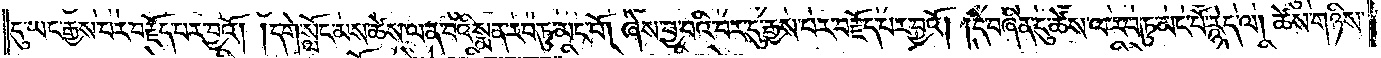དུ་ཡང་རྒྱས་པར་བརྗོད་པར་བྱའོ། །དགེ་སློང་མས་ཚེས་ལ་ན་བའི་སྨན་རབ་ཏུ་མང་པོ། ཞེས་བྱ་བའི་བར་དུ་རྒྱས་པར་བརྗོད་པར་བྱའོ། །དེ་བཞིན་དུ་ཚེས་ལ་རབ་ཏུ་མང་པོ་རྙེད་ལ། ཚེས་གཉིས་
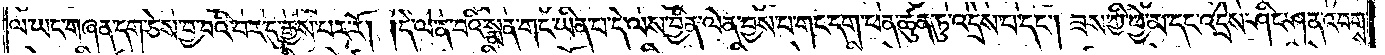ལ་ཡང་གཞན་དག་ཅེས་བྱ་བའི་བར་དུ་རྒྱས་པར་རོ། །དེ་ལ་ན་བའི་སྨན་གང་ཡིན་པ་དེ་ལས་བྱིན་ལེན་བྱས་པ་གང་དག་ཕན་ཚུན་དུ་འདྲེས་པ་དང༌། ཟས་ཀྱི་ཕྱེ་མ་དང་འདྲེས་ཤིང་ཤན་འབགས་
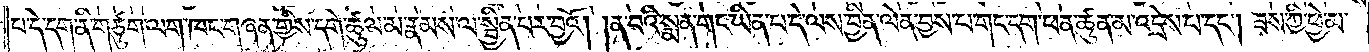པ་དེ་དག་ནི་གཙུག་ལག་ཁང་གཞན་གྱིས་དགེ་ཚུལ་མ་རྣམས་ལ་སྦྱིན་པར་བྱའོ། །ན་བའི་སྨན་གང་ཡིན་པ་དེ་ལས་བྱིན་ལེན་བྱས་པ་གང་དག་ཕན་ཚུན་མ་འདྲེས་པ་དང༌། ཟས་ཀྱི་ཕྱེ་མ་
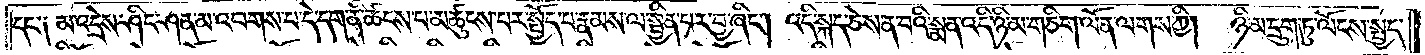དང༌། མ་འདྲེས་ཤིང་ཤན་མ་འཕགས་པ་དེ་དག་ནི་ཚངས་པ་མཚུངས་པར་སྤྱོད་པ་རྣམས་ལ་སྦྱིན་པར་བྱ་ཞིང༌། འདི་སྐད་ཅེས་ན་བའི་སྨན་འདི་ཉི་མ་གཅིག་ལོན་ལགས་ཀྱི། ཉི་མ་དྲུག་ཏུ་ལོངས་སྤྱད་
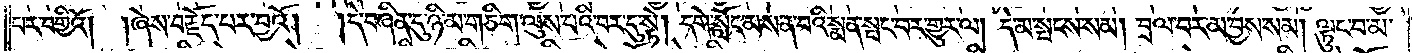པར་བགྱིའོ། །ཞེས་བརྗོད་པར་བྱའོ། །དེ་བཞིན་དུ་ཉི་མ་གཅིག་ལུས་པའི་བར་དུ་སྟེ། དགེ་སློང་མས་ན་བའི་སྨན་སྤང་བར་གྱུར་ལ། དེ་མ་སྤངས་སམ། བྲལ་བར་མ་བྱས་སམ། ལྟུང་བ་མ་
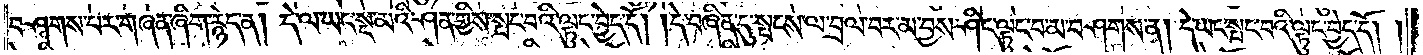བཤགས་པར་གཞན་ཞིག་རྙེད་ན། དེ་ལ་ཡང་སྔ་མའི་ཤན་གྱིས་སྤང་བའི་ལྟུང་བྱེད་དོ། །དེ་བཞིན་དུ་སྤངས་ལ་བྲལ་བར་མ་བྱས་ཤིང་ལྟུང་བ་མ་བཤགས་ན། དེ་ཡང་སྤང་བའི་ལྟུང་བྱེད་དོ། །
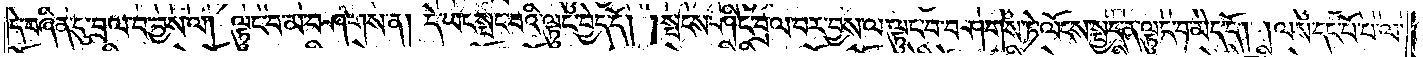དེ་བཞིན་དུ་བྲལ་བ་བྱས་ལ། ལྟུང་བ་མ་བཤགས་ན། དེ་ཡང་སྤང་བའི་ལྟུང་བྱེད་དོ། །སྤངས་ཤིང་བྲལ་བར་བྱས་ལ་ལྟུང་བ་བཤགས་ཏེ་ལོངས་སྤྱད་ན་ལྟུང་བ་མེད་དོ། །ལས་དང་པོ་པ་ལ་
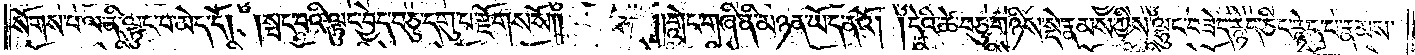སོགས་པ་ལ་ནི་ལྟུང་བ་མེད་དོ། །སྤང་བའི་ལྟུང་བྱེད་བཅུ་དགུ་པ་རྫོགས་སོ༎ ༎གླེང་གཞི་ནི་མཉན་ཡོད་ནའོ། །དེའི་ཚེ་བཅུ་གཉིས་སྡེ་རྣམས་ཀྱིས་ལྷུང་བཟེད་རྙེད་ཅིང་རྙེད་པ་རྣམས་
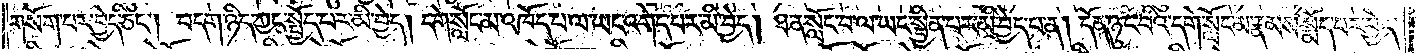གསོག་པར་བྱེད་ཅིང༌། བདག་ཉིད་ཀྱང་སྤྱོད་པར་མི་བྱེད། དགེ་སློང་མ་འཁོད་པ་ལ་ཡང་འགེད་པར་མི་བྱེད། ཐ་ན་སློང་བ་ལ་ཡང་སྦྱིན་པར་མི་བྱེད་པ་ན། དོན་ཉུང་བའི་དགེ་སློང་མ་རྣམས་སྨོད་པར་བྱེད་
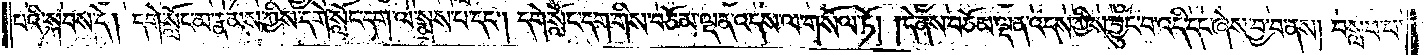པའི་སྐབས་དེ། དགེ་སློང་མ་རྣམས་ཀྱིས་དགེ་སློང་དག་ལ་སྨྲས་པ་དང༌། དགེ་སློང་དག་གིས་བཅོམ་ལྡན་འདས་ལ་གསོལ་ཏོ། །དེ་ནས་བཅོམ་ལྡན་འདས་ཀྱིས་བྱུང་བ་འདི་དང་ཞེས་བྱ་བ་ནས། བསླབ་པ་
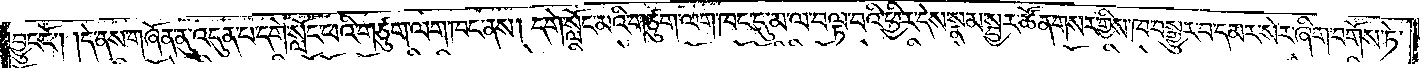བྱུང་ངོ༌། །དེ་ནས་གཞོན་ནུ་འདུན་པ་དགེ་སློང་ཕའི་གཙུག་ལག་ཁང་ནས། དགེ་སློང་མའི་གཙུག་ལག་ཁང་དུ་མ་ལ་བལྟ་བའི་ཕྱིར་དེས་སྣམ་སྦྱར་ཚོན་གསར་གྱིས་ཁ་བསྒྱུར་བ་དམར་སེར་ཞིག་བགོས་ཏེ་
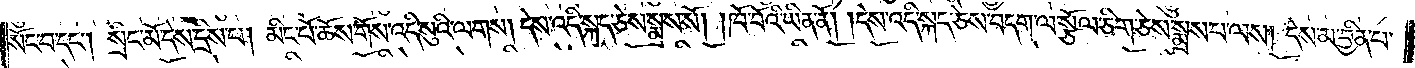སོང་བ་དང༌། སྲིང་མོ་དེས་དྲིས་པ། མིང་པོ་ཆོས་གོས་འདི་སུའི་ལགས། དེས་འདི་སྐད་ཅེས་སྨྲས་སོ། །ཁོ་བོའི་ཡིན་ནོ། །དེས་འདི་སྐད་ཅེས་བདག་ལ་སྩོལ་ཅིག་ཅེས་སྨྲས་པ་ལས། དེས་མ་བྱིན་པ་
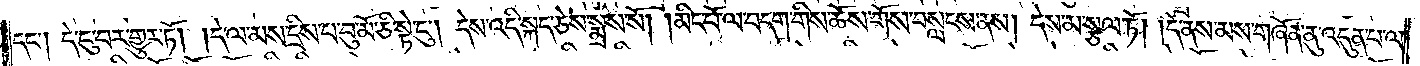དང༌། དེ་ངུ་བར་གྱུར་ཏོ། །དེ་ལ་མས་དྲིས་པ་བུ་མོ་ཅི་སྟེ་ངུ༌། དེས་འདི་སྐད་ཅེས་སྨྲས་སོ། །མིང་པོ་ལ་བདག་གིས་ཆོས་གོས་བསླངས་ནས། དེས་མ་སྩལ་ཏོ། །དེ་ནས་མས་གཞོན་ནུ་འདུན་པ་ལ་
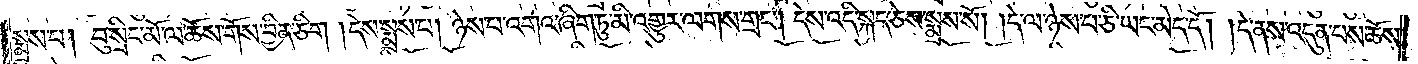སྨྲས་པ། བུ་སྲིང་མོ་ལ་ཆོས་གོས་བྱིན་ཅིག །དེས་སྨྲས་པ། ཉེས་པ་འགའ་ཞིག་ཏུ་མི་འགྱུར་ལགས་གྲང༌། དེས་འདི་སྐད་ཅེས་སྨྲས་སོ། །དེ་ལ་ཉེས་པ་ཅི་ཡང་མེད་དོ། །དེ་ནས་འདུན་པས་ཆོས་
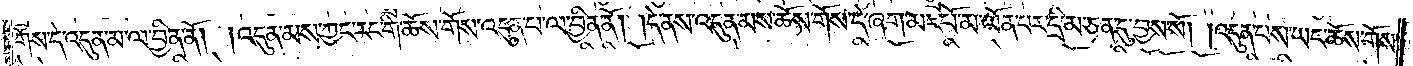གོས་དེ་འདུན་མ་ལ་བྱིན་ནོ། །འདུན་མས་ཀྱང་རང་གི་ཆོས་གོས་འདུན་པ་ལ་བྱིན་ནོ། །དེ་ནས་འདུན་མས་ཆོས་གོས་དེ་ཞག་མང་པོ་མ་ལོན་པར་དྲི་མ་ཅན་དུ་བྱས་སོ། །འདུན་པས་ཡང་ཆོས་གོས་
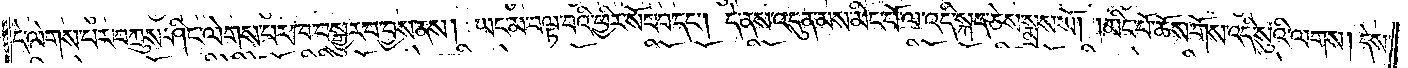དེ་ལེགས་པར་བཀྲུས་ཤིང་ལེགས་པར་ཁ་བསྒྱུར་བ་བྱས་ནས། ཡང་མ་བལྟ་བའི་ཕྱིར་སོང་བ་དང༌། དེ་ནས་འདུན་མས་མིང་པོ་ལ་འདི་སྐད་ཅེས་སྨྲས་སོ། །མིང་པོ་ཆོས་གོས་འདི་སུའི་ལགས། དེས་
